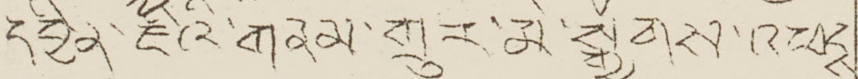དབྱིན་ཇིའི་གནམ་གྲུར་མེ་སྒྱོགས་འཕངྶ
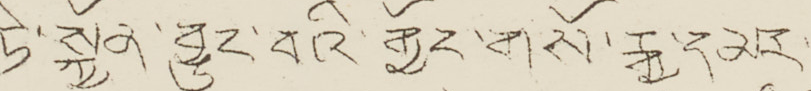ཏེ་སྐྱོན་བྱུང་བའི་གྱོང་གསོ་རྒྱ་དམར་
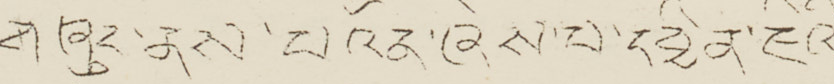གཞུང་ནས་པའོམ ཞེས་པ་དབྱིན་ཇིའི་
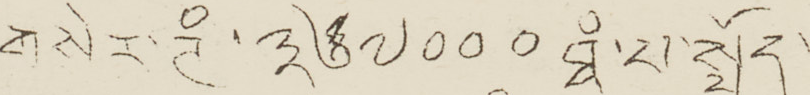གསེར་ཊཾ་ ༣༦༧༠༠༠ ཐཾ་པ་སྤྲོད་
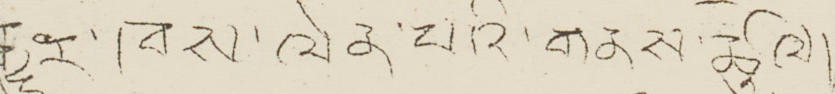རྒྱུར་ཁས་ལེན་པའི་གནས་ཚུལ།།
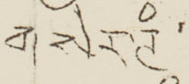གསེར་ཊཾ་
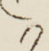༡
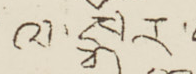ལ་སྒོར་
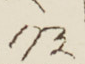༡༣
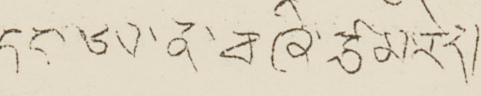དང་ཨ་ན་བཞི་ཙམ་རེད།
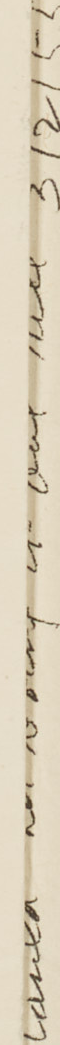3/2/55
